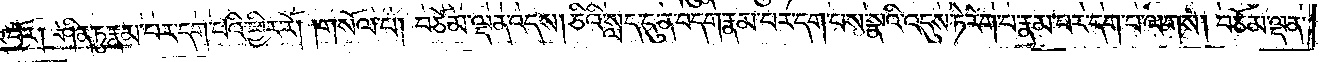རབ་འབྱོར། ཤིན་ཏུ་རྣམ་པར་དག་པའི་ཕྱིར་རོ། །གསོལ་པ། བཅོམ་ལྡན་འདས། ཅིའི་སླད་དུ་ན་བདག་རྣམ་པར་དག་པས་སྣའི་འདུས་ཏེ་རེག་པ་རྣམ་པར་དག་པ་ལགས། བཅོམ་ལྡན་
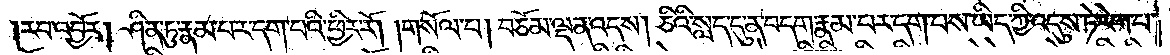རབ་འབྱོར། ཤིན་ཏུ་རྣམ་པར་དག་པའི་ཕྱིར་རོ། །གསོལ་པ། བཅོམ་ལྡན་འདས། ཅིའི་སླད་དུ་ན་བདག་རྣམ་པར་དག་པས་ཡིད་ཀྱི་འདུས་ཏེ་རེག་པ་
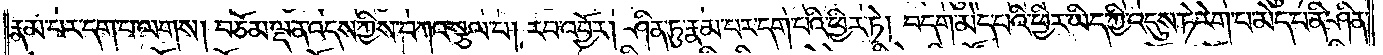རྣམ་པར་དག་པ་ལགས། བཅོམ་ལྡན་འདས་ཀྱིས་བཀའ་སྩལ་པ། རབ་འབྱོར། ཤིན་ཏུ་རྣམ་པར་དག་པའི་ཕྱིར་ཏེ། བདག་མེད་པའི་ཕྱིར་ཡིད་ཀྱི་འདུས་ཏེ་རེག་པ་མེད་པ་ནི་ཤིན་
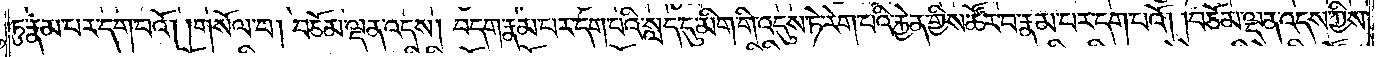ཏུ་རྣམ་པར་དག་པའོ། །གསོལ་པ། བཅོམ་ལྡན་འདས། བདག་རྣམ་པར་དག་པའི་སླད་དུ་མིག་གི་འདུས་ཏེ་རེག་པའི་རྐྱེན་གྱིས་ཚོར་བ་རྣམ་པར་དག་པའོ། །བཅོམ་ལྡན་འདས་ཀྱིས་
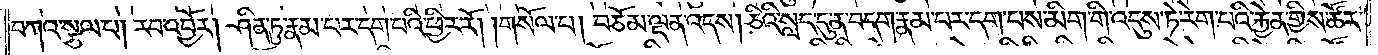བཀའ་སྩལ་པ། རབ་འབྱོར། ཤིན་ཏུ་རྣམ་པར་དག་པའི་ཕྱིར་རོ། །གསོལ་པ། བཅོམ་ལྡན་འདས། ཅིའི་སླད་དུ་ན་བདག་རྣམ་པར་དག་པས་མིག་གི་འདུས་ཏེ་རེག་པའི་རྐྱེན་གྱིས་ཚོར་
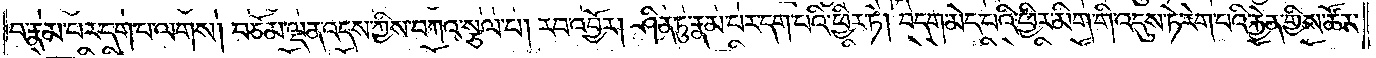བ་རྣམ་པར་དག་པ་ལགས། བཅོམ་ལྡན་འདས་ཀྱིས་བཀའ་སྩལ་པ། རབ་འབྱོར། ཤིན་ཏུ་རྣམ་པར་དག་པའི་ཕྱིར་ཏེ། བདག་མེད་པའི་ཕྱིར་མིག་གི་འདུས་ཏེ་རེག་པའི་རྐྱེན་གྱིས་ཚོར་
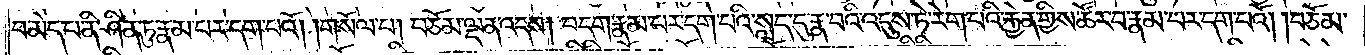བ་མེད་པ་ནི་ཤིན་ཏུ་རྣམ་པར་དག་པའོ། །གསོལ་པ། བཅོམ་ལྡན་འདས། བདག་རྣམ་པར་དག་པའི་སླད་དུ་རྣ་བའི་འདུས་ཏེ་རེག་པའི་རྐྱེན་གྱིས་ཚོར་བ་རྣམ་པར་དག་པའོ། །བཅོམ་
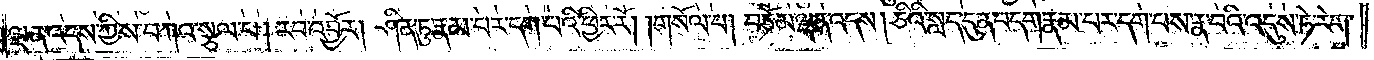ལྡན་འདས་ཀྱིས་བཀའ་སྩལ་པ། རབ་འབྱོར། ཤིན་ཏུ་རྣམ་པར་དག་པའི་ཕྱིར་རོ། །གསོལ་པ། བཅོམ་ལྡན་འདས། ཅིའི་སླད་དུ་ན་བདག་རྣམ་པར་དག་པས་རྣ་བའི་འདུས་ཏེ་རེག་
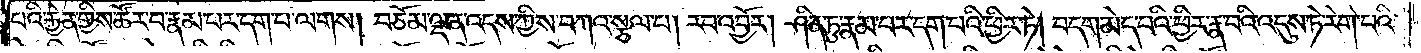པའི་རྐྱེན་གྱིས་ཚོར་བ་རྣམ་པར་དག་པ་ལགས། བཅོམ་ལྡན་འདས་ཀྱིས་བཀའ་སྩལ་པ། རབ་འབྱོར། ཤིན་ཏུ་རྣམ་པར་དག་པའི་ཕྱིར་ཏེ། བདག་མེད་པའི་ཕྱིར་རྣ་བའི་འདུས་ཏེ་རེག་པའི་
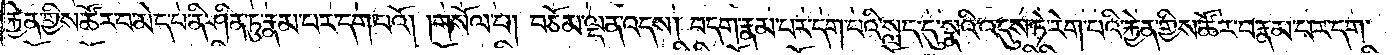རྐྱེན་གྱིས་ཚོར་བ་མེད་པ་ནི་ཤིན་ཏུ་རྣམ་པར་དག་པའོ། །གསོལ་པ། བཅོམ་ལྡན་འདས། བདག་རྣམ་པར་དག་པའི་སླད་དུ་སྣའི་འདུས་ཏེ་རེག་པའི་རྐྱེན་གྱིས་ཚོར་བ་རྣམ་པར་དག་
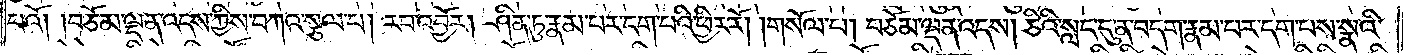པའོ། །བཅོམ་ལྡན་འདས་ཀྱིས་བཀའ་སྩལ་པ། རབ་འབྱོར། ཤིན་ཏུ་རྣམ་པར་དག་པའི་ཕྱིར་རོ། །གསོལ་པ། བཅོམ་ལྡན་འདས། ཅིའི་སླད་དུ་ན་བདག་རྣམ་པར་དག་པས་སྣའི་
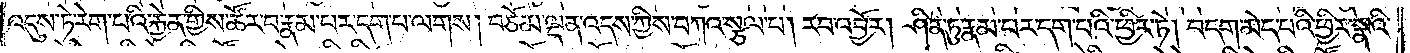འདུས་ཏེ་རེག་པའི་རྐྱེན་གྱིས་ཚོར་བ་རྣམ་པར་དག་པ་ལགས། བཅོམ་ལྡན་འདས་ཀྱིས་བཀའ་སྩལ་པ། རབ་འབྱོར། ཤིན་ཏུ་རྣམ་པར་དག་པའི་ཕྱིར་ཏེ། བདག་མེད་པའི་ཕྱིར་སྣའི་
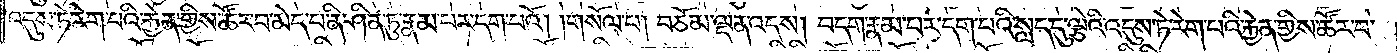འདུས་ཏེ་རེག་པའི་རྐྱེན་གྱིས་ཚོར་བ་མེད་པ་ནི་ཤིན་ཏུ་རྣམ་པར་དག་པའོ། །གསོལ་པ། བཅོམ་ལྡན་འདས། བདག་རྣམ་པར་དག་པའི་སླད་དུ་ལྕེའི་འདུས་ཏེ་རེག་པའི་རྐྱེན་གྱིས་ཚོར་བ་
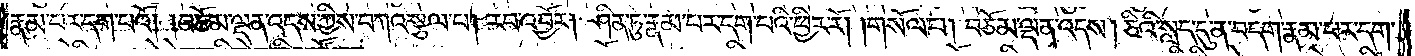རྣམ་པར་དག་པའོ། །བཅོམ་ལྡན་འདས་ཀྱིས་བཀའ་སྩལ་པ། རབ་འབྱོར། ཤིན་ཏུ་རྣམ་པར་དག་པའི་ཕྱིར་རོ། །གསོལ་པ། བཅོམ་ལྡན་འདས། ཅིའི་སླད་དུ་ན་བདག་རྣམ་པར་དག་
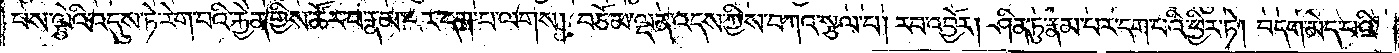པས་ལྕེའི་འདུས་ཏེ་རེག་པའི་རྐྱེན་གྱིས་ཚོར་བ་རྣམ་པར་དག་པ་ལགས། བཅོམ་ལྡན་འདས་ཀྱིས་བཀའ་སྩལ་པ། རབ་འབྱོར། ཤིན་ཏུ་རྣམ་པར་དག་པའི་ཕྱིར་ཏེ། བདག་མེད་པའི་
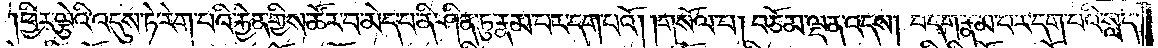ཕྱིར་ལྕེའི་འདུས་ཏེ་རེག་པའི་རྐྱེན་གྱིས་ཚོར་བ་མེད་པ་ནི་ཤིན་ཏུ་རྣམ་པར་དག་པའོ། །གསོལ་པ། བཅོམ་ལྡན་འདས། བདག་རྣམ་པར་དག་པའི་སླད་
